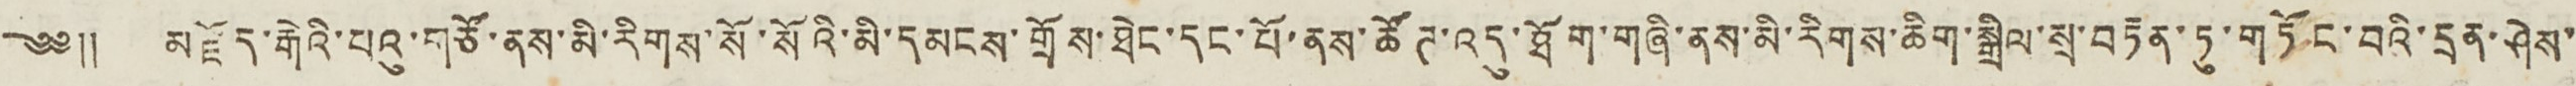༄༅༎ མཛོད་རྒེ་པའུ་གཙོ་ནས་མི་རིགས་སོ་སོའི་མི་དམངས་གྲོས་ཐེང་དང་པོ་ནས་ཚོཊ་འདུ་ཐོག་གཞི་ནས་མི་རིགས་ཆིག་སྒྲིལ་སྲ་བརྟེན་ཏུ་གཏོང་བའི་དྲན་ཤེས་
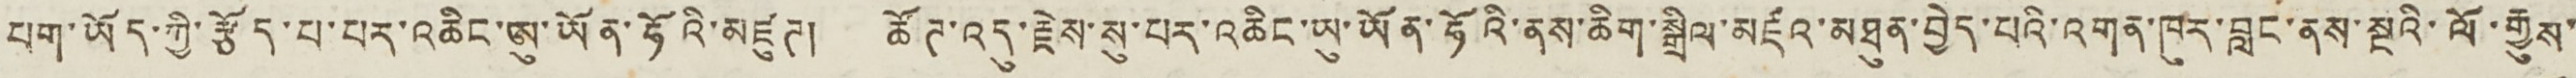པག་ཡོད་ཀྱི་རྩོད་པ་པར་འཆིང་ཨུ་ཡོན་ཧོའི་མཛུཊ། ཚོཊ་འདུ་རྗེས་སུ་པར་འཆིང་ཡུ་ཡོན་ཧོའི་ནས་ཆིག་སྒྲིལ་མཛའ་མཐུན་བྱེད་པའི་འགན་ཁུར་བླང་ནས་སྔའི་ལོ་རྒྱུས་
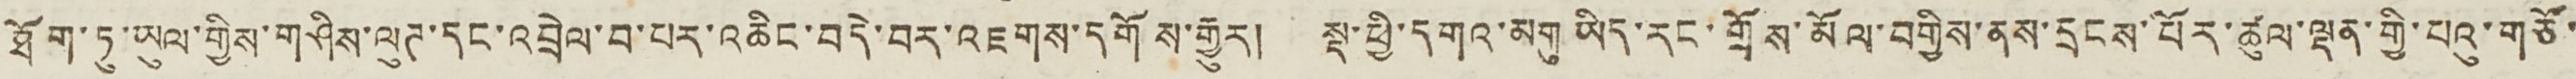ཐོག་ཏུ་ཡུལ་གྱིས་གཤིས་ལུཊ་དང་འབྲེལ་བ་པར་འཆིང་བདེ་བར་འཇགས་དགོས་རྒྱུར། སྡ་ཕྱི་དགའ་མགུ ཡིད་རང་གྲོས་མོལ་བགྱིས་ནས་དྲངས་པོར་ཚུལ་ལྡན་གྱི་པའུ་གཙོ་
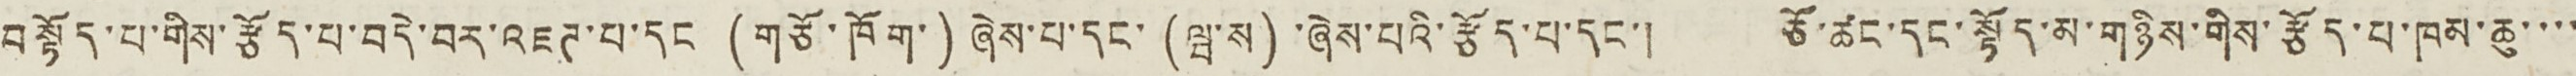བསྟོད་པ་གིས་རྩོད་པ་བདེ་བར་འཇཊ་པ་དང (གཙོ་ཁོག་) ཞེས་པ་དང་ (ལྦ་ས) ་ཞེས་པའི་རྩོད་པ་དང་། ཅོ་ཚང་དང་སྟོད་མ་གཉིས་གིས་རྩོད་པ་ཁམ་ཆུ་་་་
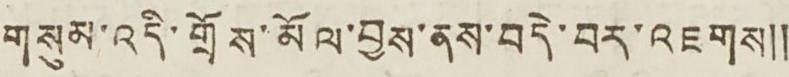གསུམ་འདི་གྲོས་མོལ་བྱས་ནས་བདེ་བར་འཇགས༎
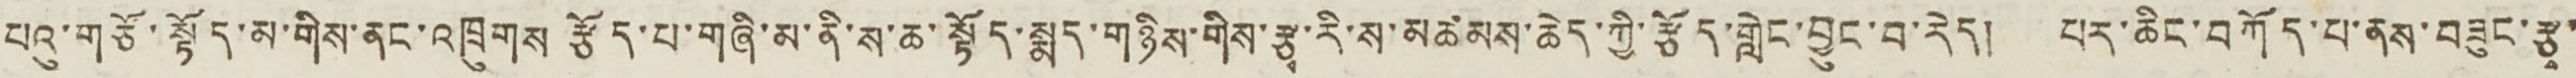པའུ་གཙོ་སྟོད་མ་གིས་ནང་འཁྲུགས རྩོད་པ་གཞི་མ་ནི་ས་ཆ་སྟོད་སྨད་གཉིས་གིས་རྩྭ་རི་ས་མཚམས་ཆེད་ཀྱི་རྩོད་གླེང་བྱུང་བ་རེད། པར་ཆིང་བཀོད་པ་ནས་བཟུང་རྩྭ་
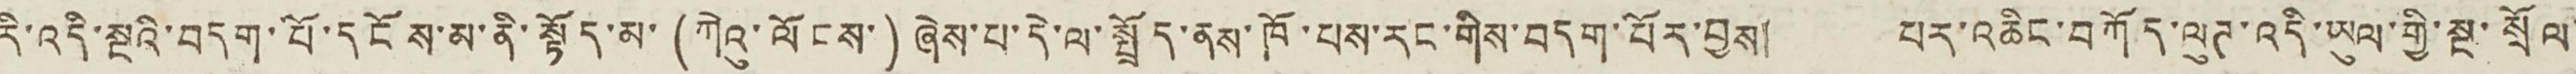རི་འདི་སྔའི་བདག་པོ་དངོས་མ་ནི་སྟོད་མ་ (ཀེའུ་ལོངས་) ཞེས་པ་དེ་ལ་སྤྲོད་ནས་ཁོ་པས་རང་གིས་བདག་པོར་བྱས། པར་འཆིང་བཀོད་ལུཊ་འདི་ཡུལ་གྱི་སྔ་སྲོལ་
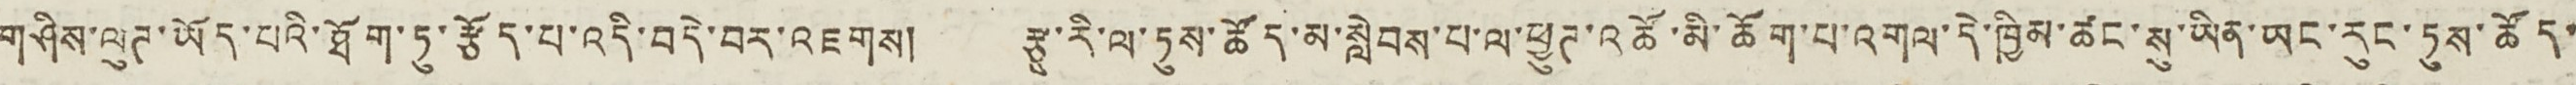གཤིས་ལུཊ་ཡོད་པའི་ཐོག་ཏུ་རྩོད་པ་འདི་བདེ་བར་འཇགས། རྩྭ་རི་ལ་ཏུས་ཚོད་མ་སླེབས་པ་ལ་ཕྱུཊ་འཚོ་མི་ཆོག་པ་འགལ་དེ་ཁྱིམ་ཚང་སུ་ཡིན་ཡང་རུང་ཏུས་ཚོད་
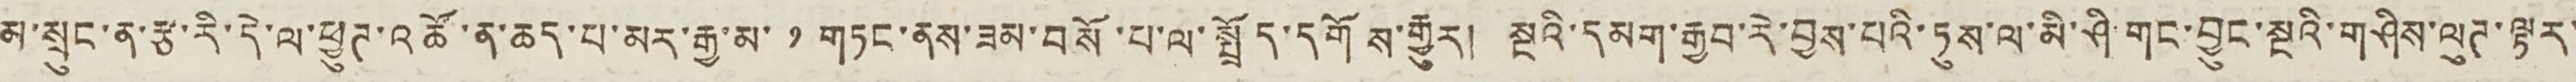མ་སྲུང་ན་རྩ་རི་དེ་ལ་ཕྱུཊ་འཚོ་ན་ཆད་པ་མར་རྒྱ་མ་ ༡ གཏང་ནས་ཟམ་བསོ་པ་ལ་སྤྲོད་དགོས་རྒྱུར། སྔའི་དམག་རྒྱབ་རེ་བྱས་པའི་ཏུས་ལ་མི་ཤི གང་བྱུང་སྔའི་གཤིས་ལུཊ་ལྟར་
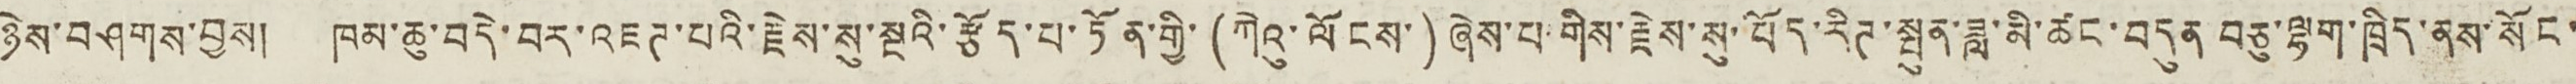ཉེས་བཤགས་བྱས། ཁམ་ཆུ་བདེ་བར་འཇཊ་པའི་རྗེས་སུ་སྔའི་རྩོད་པ་ཏོན་གྱི་ (ཀེའུ་ལོངས་) ཞེས་པ་གིས་རྗེས་སུ་བོད་རིཊ་སྤུན་ཟླ་མི་ཚང་བདུན བཅུ་ལྷག་ཁྲིད་ནས་སོང་
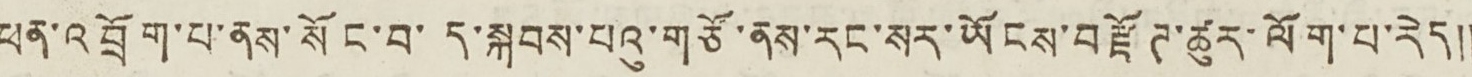ཕན་འབྲོག་པ་ནས་སོང་བ་ད་སྐབས་པའུ་གཙོ་ནས་རང་སར་ཡོངས་བརྫོཊ་ཚུར་ལོག་པ་རེད༎
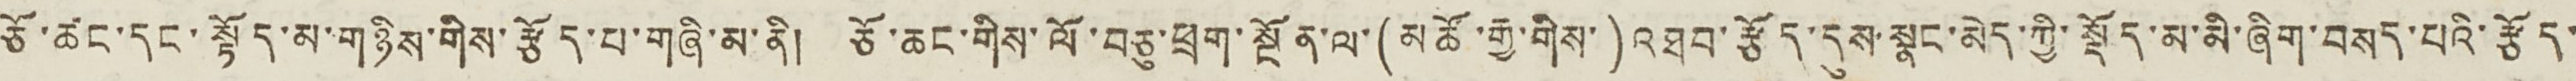ཅོ་ཚང་དང་སྟོད་མ་གཉིས་གིས་རྩོད་པ་གཞི་མ་ནི། ཅོ་ཆང་གིས་ལོ་བཅུ་ཕྲག་སྔོན་ལ་(མཚོ་རྒྱ་གིས་)འཐབ་རྩོད་དུས་སྣང་མེད་ཀྱི་སྡོད་མ་མི་ཞིག་བསད་པའི་རྩོད་
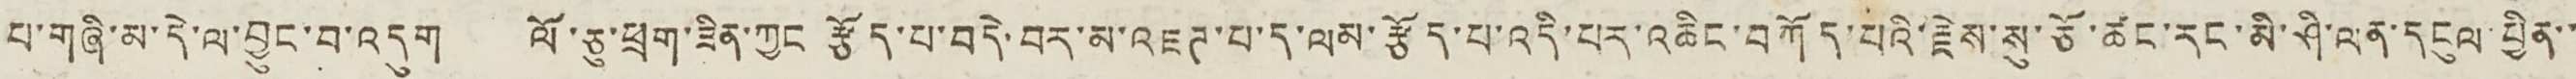པ་གཞི་མ་དེ་ལ་བྱུང་བ་འདུག ལོ་ཅུ་ཕྲག་ཟིན་ཀྱང རྩོད་པ་བདེ་བར་མ་འཇཊ་པ་ད་ལམ་རྩོད་པ་འདི་པར་འཆིང་བཀོད་པའི་རྗེས་སུ་ཅོ་ཚང་རང་མི་ཤི་ལན་དངུལ་བྱིན་་
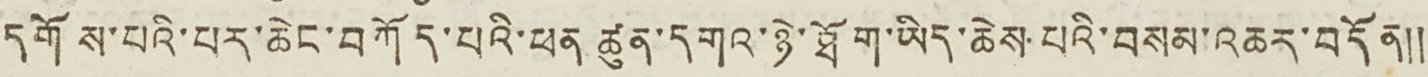དགོས་པའི་པར་ཆེང་བཀོད་པའི་ཕན ཚུན་དགའ་ཉེ་ཐོག་ཡོད་ཆེས་པའི་བསམ་འཆར་བདོན༎
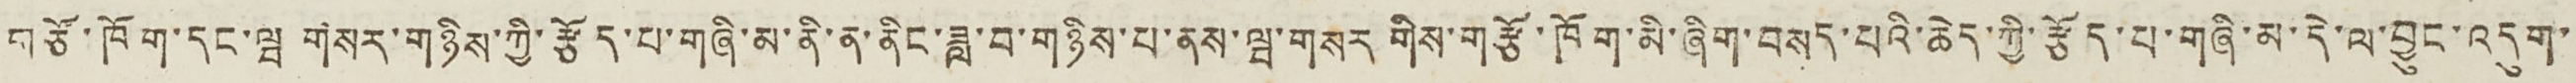གཙོ་ཁོག་དང་ལྦ གསར་གཉིས་ཀྱི་རྩོད་པ་གཞི་མ་ནི་ན་ནིང་ཟླ་བ་གཉིས་པ་ནས་ལྦ་གསར གིས་གརྩོ་ཁོག་མི་ཞིག་བསད་པའི་ཆེད་ཀྱི་རྩོད་པ་གཞི་མ་དེ་ལ་བྱུང་འདུག་
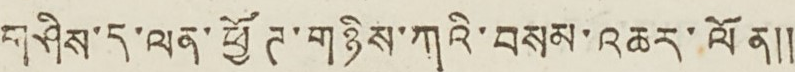གཤིས་ད་ལན་ཕྱོཊ་གཉིས་ཀའི་བསམ་འཆར་ལོན༎
